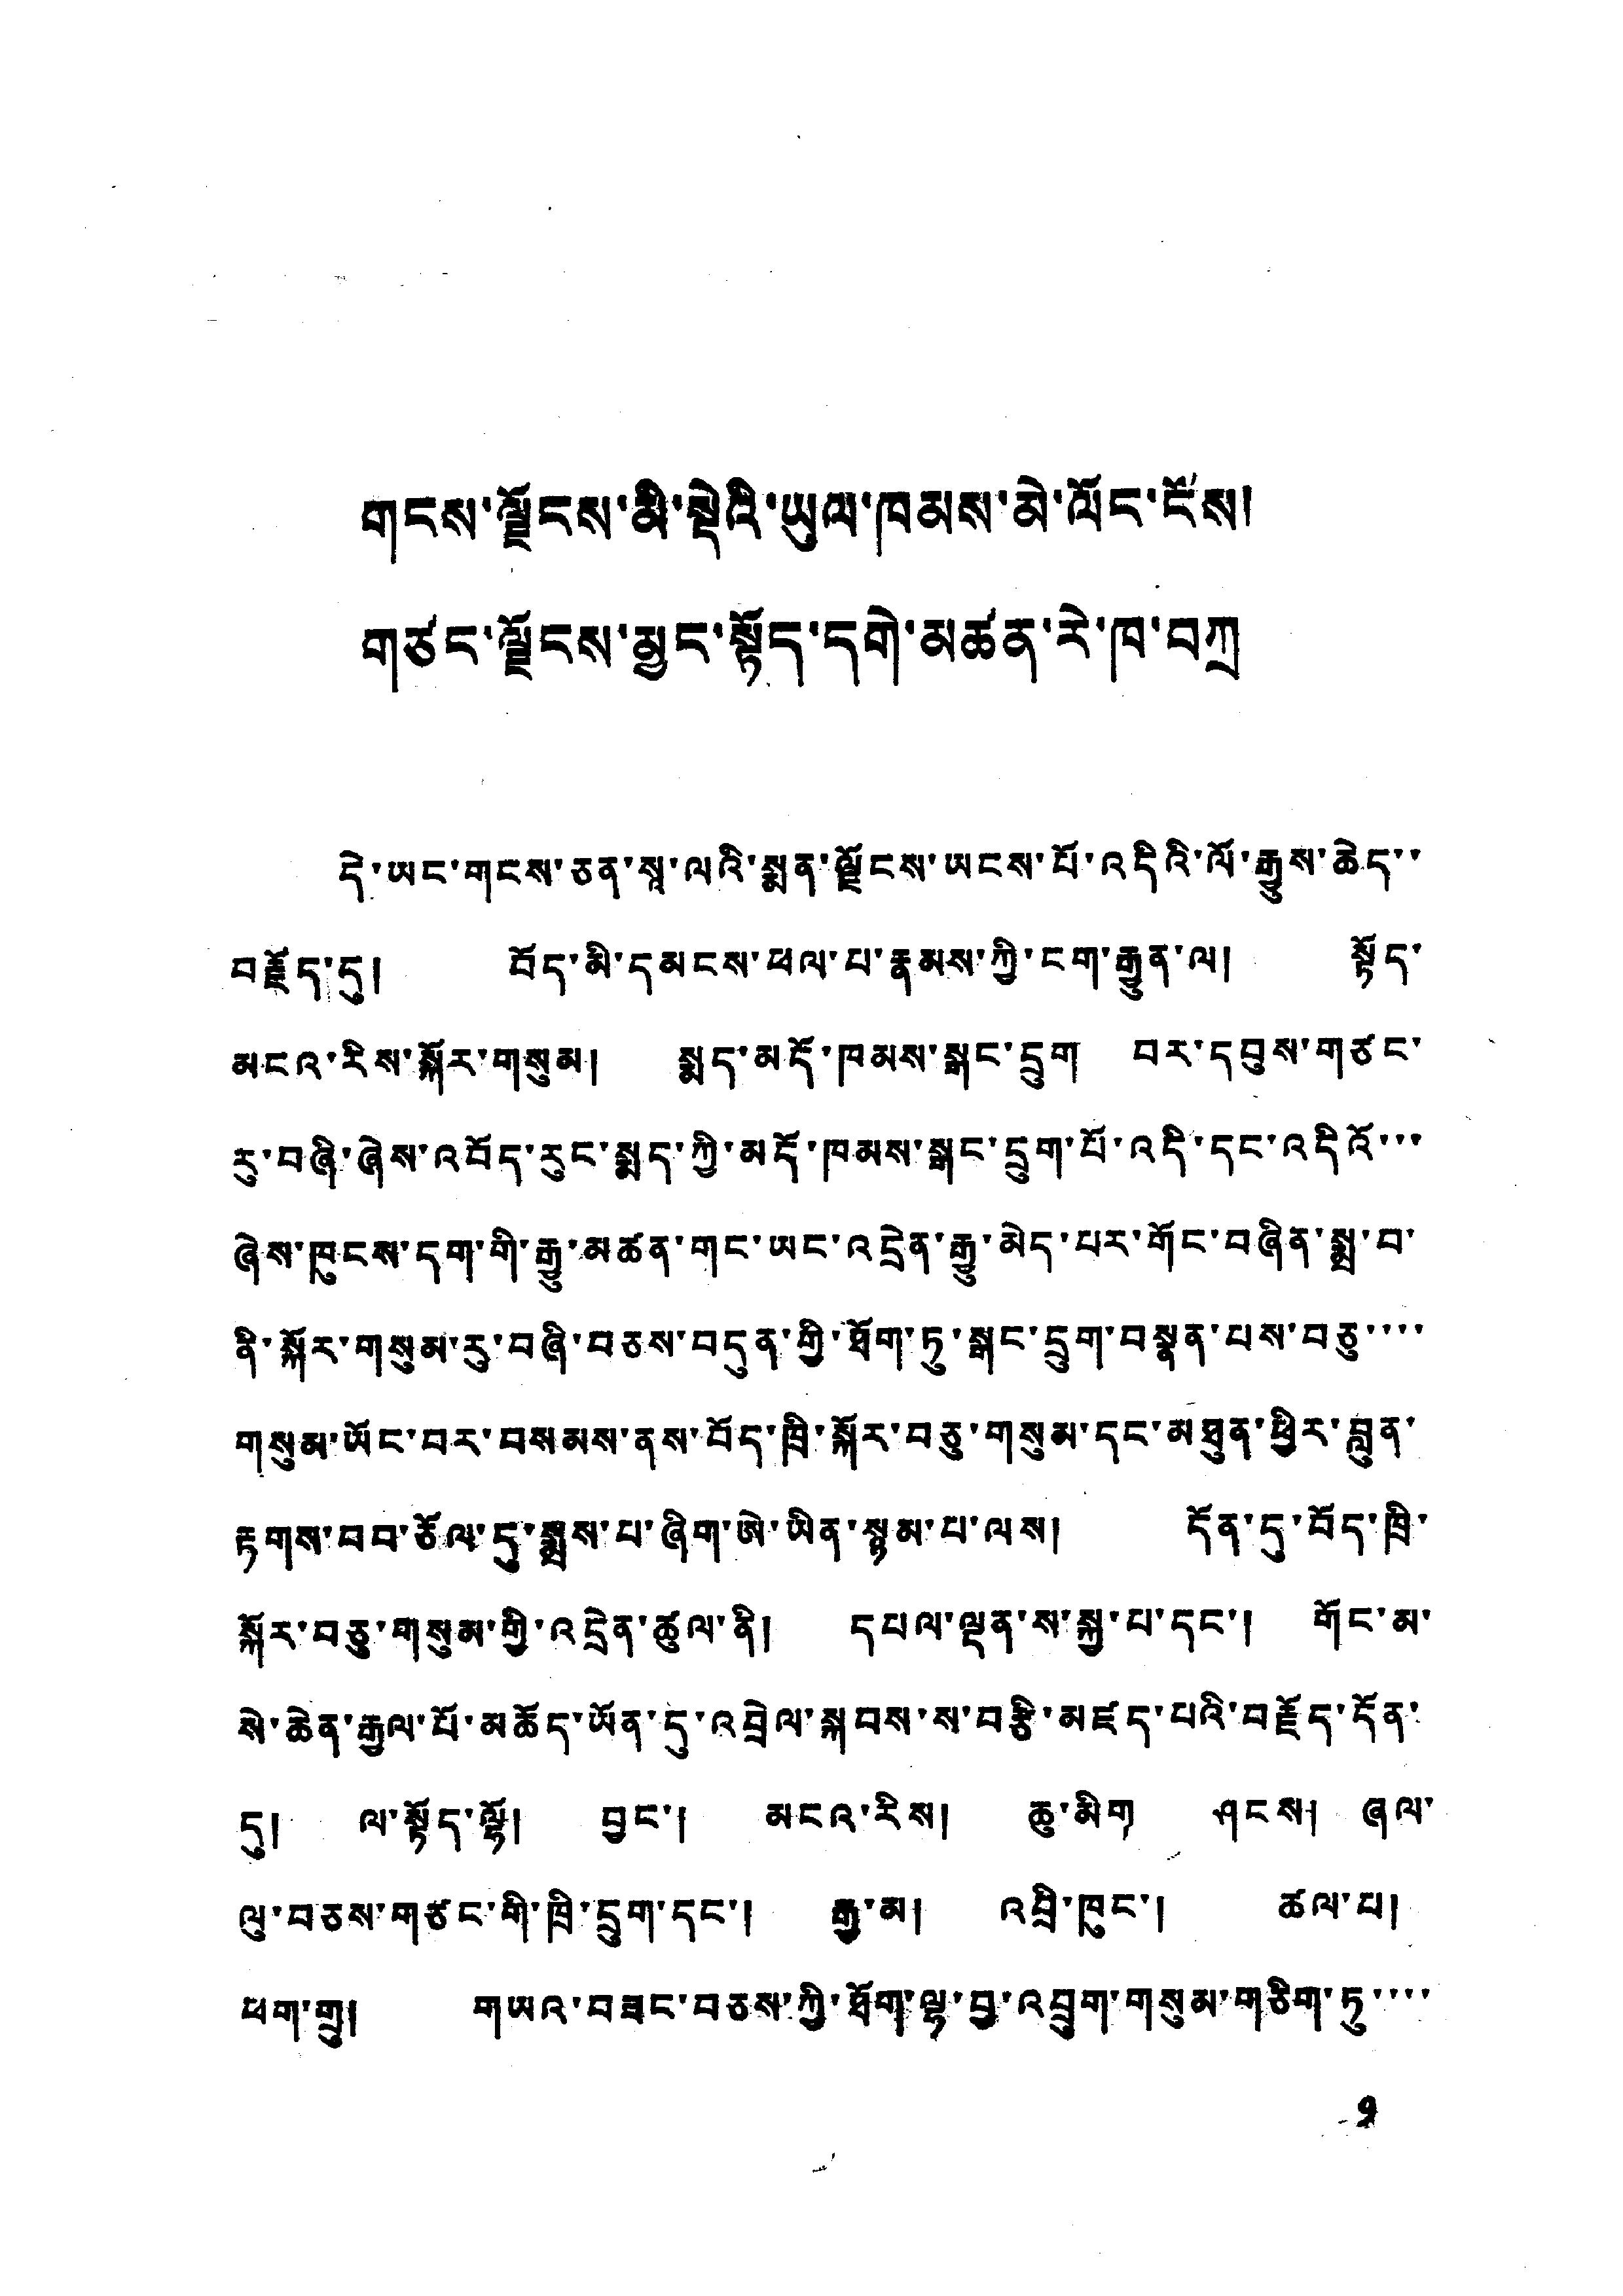གངས་ལྗོངས་མི་སྡེའི་ཡུལ་ཁམས་མེ་ལོང་ངོས།
གཙང་ལྗོངས་མྱང་སྟོད་དགེ་མཚན་རེ་ཁ་བཀྲ
དེ་ཡང་གངས་ཅན་སའ་ལའི་སྨན་ལྗོངས་ཡངས་པོ་འདིའི་ལོ་རྒྱུས་ཆེད་་
བརྗོད་དུ། བོད་མི་དམངས་ཕལ་པ་རྣམས་ཀྱི་ངག་རྒྱུན་ལ། སྟོད་
མངའ་རིས་སྐོར་གསུམ། སྨད་མདོ་ཁམས་སྒང་དྲུག བར་དབུས་གཙང་
རུ་བཞི་ཞེས་འབོད་རུང་སྨད་ཀྱི་མདོ་ཁམས་སྒང་དྲུག་པོ་འདི་ད་འདིའོ་་་
ཞེས་ཁུངས་དག་གི་རྒྱུ་མཚན་གང་ཡང་འདྲེན་རྒྱུ་མེད་པར་གོང་བཞིན་སྨྲ་བ་
ནི་སྐོར་གསུམ་རུ་བཞི་བཅས་བདུན་གྱི་ཐོག་ཏུ་སྒང་དྲུག་བསྣན་པས་བཅུ་་་་
གསུམ་ཡོང་བར་བསམས་ནས་བོད་ཁྲི་སྐོར་བཅུ་གསུམ་དང་མཐུན་ཕྱིར་བླུན་
རྟགས་བབ་ཅོལ་དུ་སྨྲས་པ་ཞིག་ཨེ་ཡིན་སྙམ་པ་ལས། དོན་དུ་བོད་ཁྲི་
སྐོར་བཅུ་གསུམ་གྱི་འདྲེན་ཚུལ་ནི། དཔལ་ལྡན་ས་སྐྱ་པ་དང་། གོང་མ་
སེ་ཆེན་རྒྱལ་པོ་མཆོད་ཡོན་དུ་འབྲེལ་སྐབས་ས་བརྩི་མཛད་པའི་བརྗོད་དོན་
དུ། ལ་སྟོད་ལྷོ། བྱང་། མངའ་རིས། ཆུ་མིག ཤངས། ཞལ་
ལུ་བཅས་གཙང་གི་ཁྲི་དྲུག་དང་། རྒྱ་མ། འབྲི་ཁུང་། ཚལ་པ།
ཕག་གྲུ། གཡའ་བཟང་བཅས་ཀྱི་ཐོག་ལྷ་བྱ་འབྲུག་གསུམ་གཅིག་ཏུ་་་་
9
